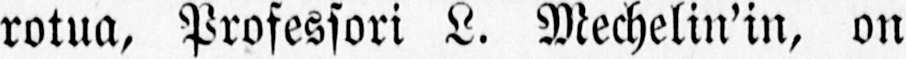rotua, Professori L. Mechelin’in, on
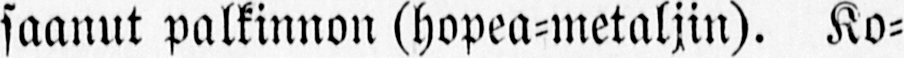saanut palkinnon (hopea-metaljin). Ko-
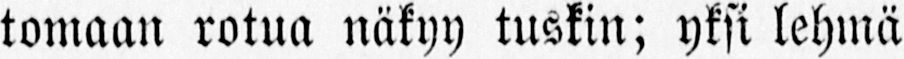tomaan rotua näkyy tuskin; yksi lehmä
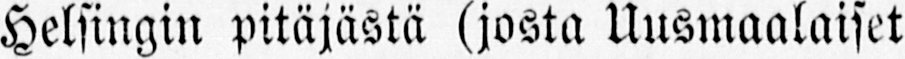Helsingin pitäjästä (josta Uusmaalaiset
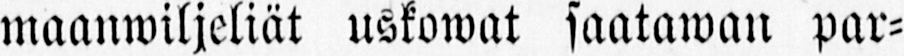maanwiljeliät uskowat saatawan par-
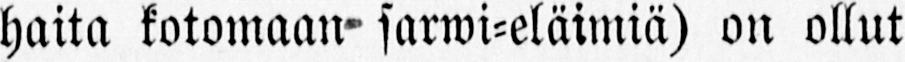haita kotomaan sarwi-eläimiä) on ollut
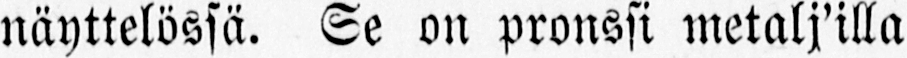näyttelössä. Se on pronssi metalj’illa
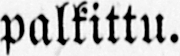palkittu.
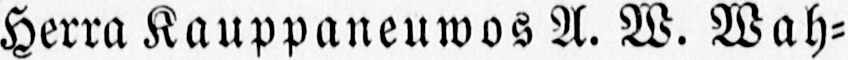Herra Kauppaueuwos A. W. Wah-
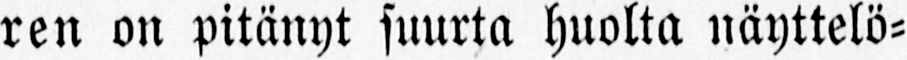ren on pitänyt suurta huolta näyttelö-
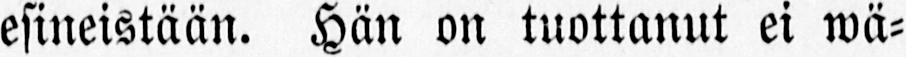esineistään. Hän on tuottanut ei wä-
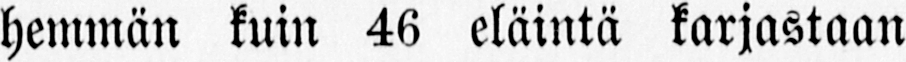hemmän kuin 46 eläintä karjastaan
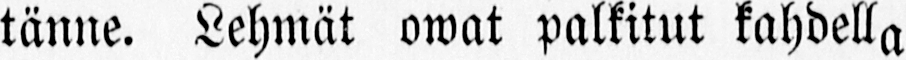tänne. Lehmät owat palkitut kahdella
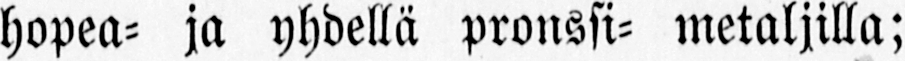hopea- ja yhdellä pronssi- metaljilla;
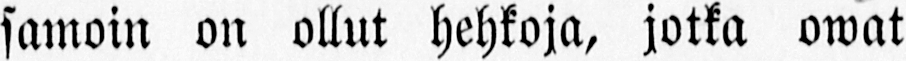samoin on ollut hehkoja, jotka owat
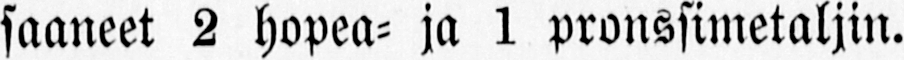saaneet 2 hopea- ja 1 pronssimetaljin.
